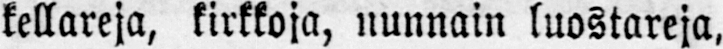kellareja, kirkkoja, nunnain luostareja,
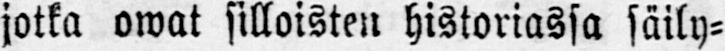jotka owat silloisten historiassa säily-
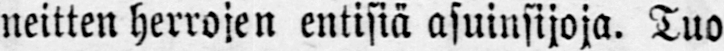neitten herrojen entisiä asuinsijoja. Tuo
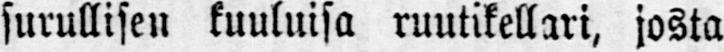surullisen kuuluisa ruutikellari, josta
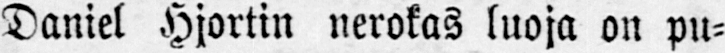Daniel Hjortin nerokas luoja on pu-
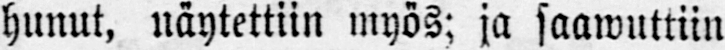hunut, näytettiin myös; ja saawuttiin
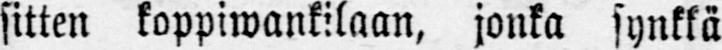sitten koppiwankilaan, jonka synkkä
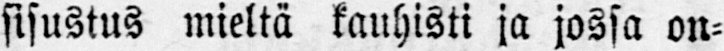sisustus mieltä kauhisti ja jossa on-
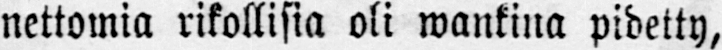nettomia rikollisia oli wankina pidetty,
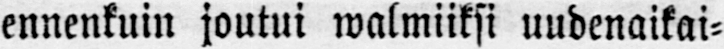ennenkuin joutui walmiiksi uudenaikai-
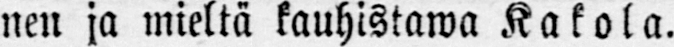nen ja mieltä kauhistawa Kakola.
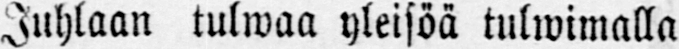Juhlaan tulwaa yleisöä tulwimalla
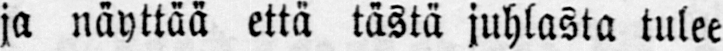ja näyttää että tästä juhlasta tulee
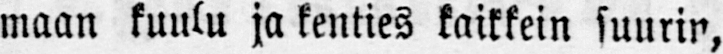maan kuulu ja kenties kaikkein suurin,
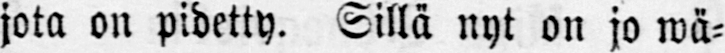jota on pidetty. Sillä nyt on jo wä-
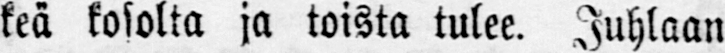keä kosolta ja toista tulee. Juhlaan
